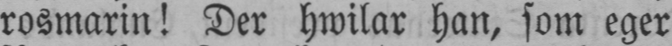rosmarin! Der hwilar han, som eger
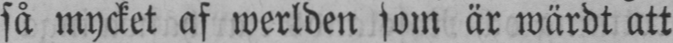så mycket af werlden som är wärdt att
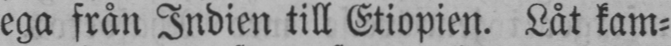ega från Indien till Etiopien. Låt kam-
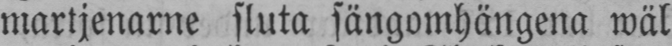martjenarne sluta sängomhängena wäl
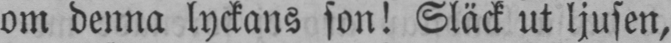om denna lyckans son! Släck ut ljusen,
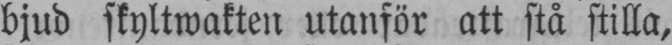bjud skyltwakten utanför att stå stilla,
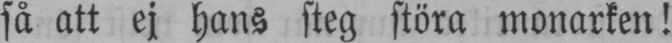så att ej hans steg störa monarken!
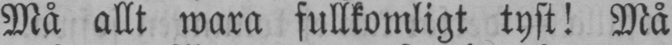Må allt wara fullkomligt tyst! Må
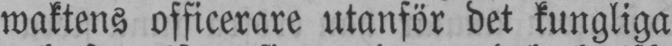waktens officerare utanför det kungliga
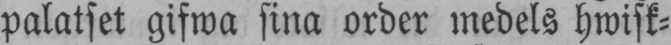palatset gifwa sina order medels hwisk-
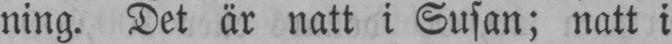ning. Det är natt i Susan; natt i
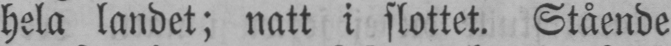hela landet; natt i slottet. Stående
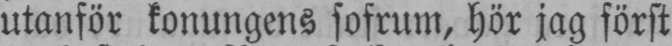utanför konungens sofrum, hör jag först
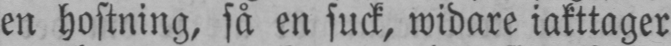en hostning, så en suck, widare iakttager
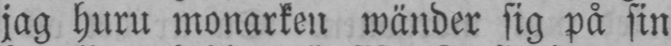jag huru monarken wänder sig på sin
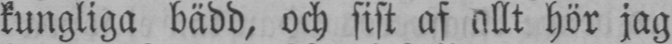kungliga bädd, och sist af allt hör jag
